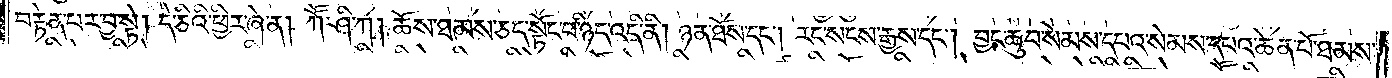བརྟེན་པར་བྱ་སྟེ། དེ་ཅིའི་ཕྱིར་ཞེ་ན། ཀཽ་ཤི་ཀ། ཆོས་ཐམས་ཅད་སྟོང་པ་ཉིད་འདི་ནི། ཉན་ཐོས་དང༌། རང་སངས་རྒྱས་དང༌། བྱང་ཆུབ་སེམས་དཔའ་སེམས་དཔའ་ཆེན་པོ་ཐམས་
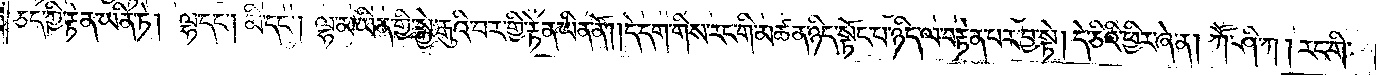ཅད་ཀྱི་རྟེན་ཡིན་ཏེ། ལྷ་དང༌། མི་དང༌། ལྷ་མ་ཡིན་གྱི་སྐྱེ་རྒུའི་བར་གྱི་རྟེན་ཡིན་ནོ། །དེ་དག་གིས་རང་གི་མཚན་ཉིད་སྟོང་པ་ཉིད་ལ་བརྟེན་པར་བྱ་སྟེ། དེ་ཅིའི་ཕྱིར་ཞེ་ན། ཀཽ་ཤི་ཀ། རང་གི་
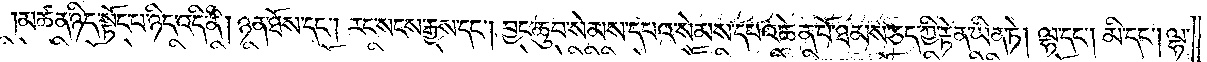མཚན་ཉིད་སྟོང་པ་ཉིད་འདི་ནི། ཉན་ཐོས་དང༌། རང་སངས་རྒྱས་དང༌། བྱང་ཆུབ་སེམས་དཔའ་སེམས་དཔའ་ཆེན་པོ་ཐམས་ཅད་ཀྱི་རྟེན་ཡིན་ཏེ། ལྷ་དང༌། མི་དང༌། ལྷ་
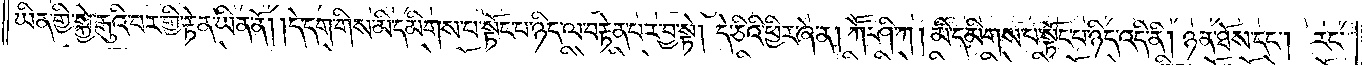ཡིན་གྱི་སྐྱེ་རྒུའི་བར་གྱི་རྟེན་ཡིན་ནོ། །དེ་དག་གིས་མི་དམིགས་པ་སྟོང་པ་ཉིད་ལ་བརྟེན་པར་བྱ་སྟེ། དེ་ཅིའི་ཕྱིར་ཞེ་ན། ཀཽ་ཤི་ཀ། མི་དམིགས་པ་སྟོང་པ་ཉིད་འདི་ནི། ཉན་ཐོས་དང༌། རང་
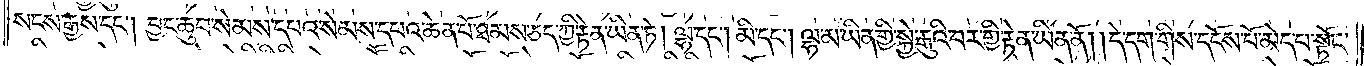སངས་རྒྱས་དང༌། བྱང་ཆུབ་སེམས་དཔའ་སེམས་དཔའ་ཆེན་པོ་ཐམས་ཅད་ཀྱི་རྟེན་ཡིན་ཏེ། ལྷ་དང༌། མི་དང༌། ལྷ་མ་ཡིན་གྱི་སྐྱེ་རྒུའི་བར་གྱི་རྟེན་ཡིན་ནོ། །དེ་དག་གིས་དངོས་པོ་མེད་པ་སྟོང་
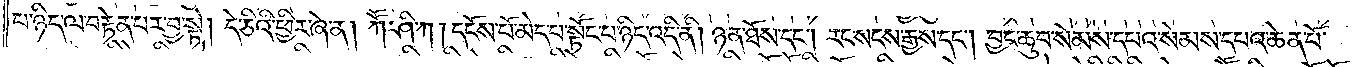པ་ཉིད་ལ་བརྟེན་པར་བྱ་སྟེ། དེ་ཅིའི་ཕྱིར་ཞེ་ན། ཀཽ་ཤི་ཀ། དངོས་པོ་མེད་པ་སྟོང་པ་ཉིད་འདི་ནི། ཉན་ཐོས་དང༌། རང་སངས་རྒྱས་དང༌། བྱང་ཆུབ་སེམས་དཔའ་སེམས་དཔའ་ཆེན་པོ་
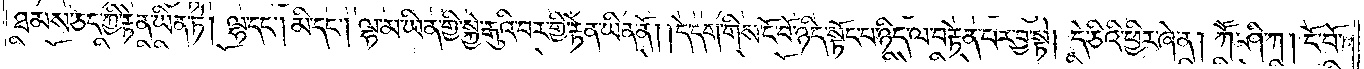ཐམས་ཅད་ཀྱི་རྟེན་ཡིན་ཏེ། ལྷ་དང༌། མི་དང༌། ལྷ་མ་ཡིན་གྱི་སྐྱེ་རྒུའི་བར་གྱི་རྟེན་ཡིན་ནོ། །དེ་དག་གིས་ངོ་བོ་ཉིད་སྟོང་པ་ཉིད་ལ་བརྟེན་པར་བྱ་སྟེ། དེ་ཅིའི་ཕྱིར་ཞེ་ན། ཀཽ་ཤི་ཀ། ངོ་བོ་
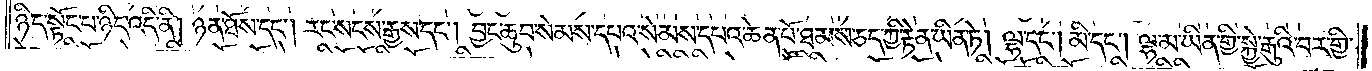ཉིད་སྟོང་པ་ཉིད་འདི་ནི། ཉན་ཐོས་དང༌། རང་སངས་རྒྱས་དང༌། བྱང་ཆུབ་སེམས་དཔའ་སེམས་དཔའ་ཆེན་པོ་ཐམས་ཅད་ཀྱི་རྟེན་ཡིན་ཏེ། ལྷ་དང༌། མི་དང༌། ལྷ་མ་ཡིན་གྱི་སྐྱེ་རྒུའི་བར་གྱི་
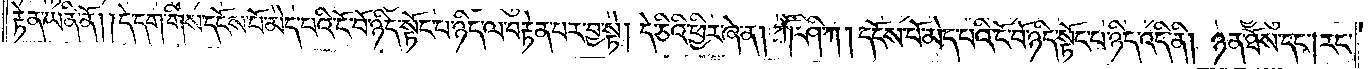རྟེན་ཡིན་ནོ། །དེ་དག་གིས་དངོས་པོ་མེད་པའི་ངོ་བོ་ཉིད་སྟོང་པ་ཉིད་ལ་བརྟེན་པར་བྱ་སྟེ། དེ་ཅིའི་ཕྱིར་ཞེ་ན། ཀཽ་ཤི་ཀ། དངོས་པོ་མེད་པའི་ངོ་བོ་ཉིད་སྟོང་པ་ཉིད་འདི་ནི། ཉན་ཐོས་དང༌། རང་
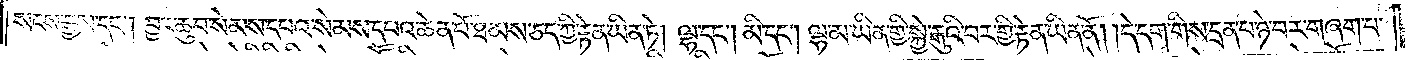སངས་རྒྱས་དང༌། བྱང་ཆུབ་སེམས་དཔའ་སེམས་དཔའ་ཆེན་པོ་ཐམས་ཅད་ཀྱི་རྟེན་ཡིན་ཏེ། ལྷ་དང༌། མི་དང༌། ལྷ་མ་ཡིན་གྱི་སྐྱེ་རྒུའི་བར་གྱི་རྟེན་ཡིན་ནོ། །དེ་དག་གིས་དྲན་པ་ཉེ་བར་གཞག་པ་
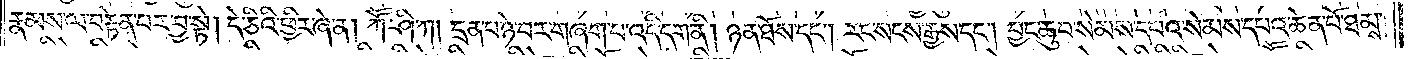རྣམས་ལ་བརྟེན་པར་བྱ་སྟེ། དེ་ཅིའི་ཕྱིར་ཞེ་ན། ཀཽ་ཤི་ཀ། དྲན་པ་ཉེ་བར་བཞག་པ་འདི་དག་ནི། ཉན་ཐོས་དང༌། རང་སངས་རྒྱས་དང༌། བྱང་ཆུབ་སེམས་དཔའ་སེམས་དཔའ་ཆེན་པོ་ཐམས་
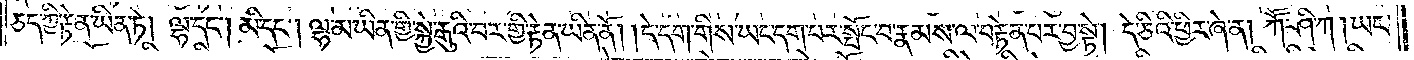ཅད་ཀྱི་རྟེན་ཡིན་ཏེ། ལྷ་དང༌། མི་དང༌། ལྷ་མ་ཡིན་གྱི་སྐྱེ་རྒུའི་བར་གྱི་རྟེན་ཡིན་ནོ། །དེ་དག་གིས་ཡང་དག་པར་སྤོང་བ་རྣམས་ལ་བརྟེན་པར་བྱ་སྟེ། དེ་ཅིའི་ཕྱིར་ཞེ་ན། ཀཽ་ཤི་ཀ། ཡང་
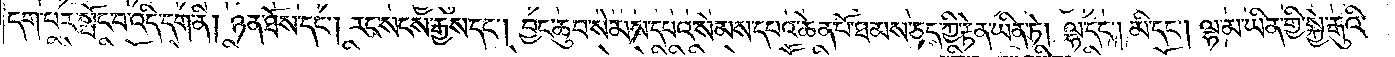དག་པར་སྤོང་བ་འདི་དག་ནི། ཉན་ཐོས་དང༌། རང་སངས་རྒྱས་དང༌། བྱང་ཆུབ་སེམས་དཔའ་སེམས་དཔའ་ཆེན་པོ་ཐམས་ཅད་ཀྱི་རྟེན་ཡིན་ཏེ། ལྷ་དང༌། མི་དང༌། ལྷ་མ་ཡིན་གྱི་སྐྱེ་རྒུའི་
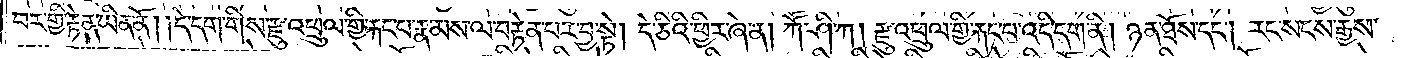བར་གྱི་རྟེན་ཡིན་ནོ། །དེ་དག་གིས་རྫུ་འཕྲུལ་གྱི་རྐང་པ་རྣམས་ལ་བརྟན་པར་བྱ་སྟེ། དེ་ཅིའི་ཕྱིར་ཞེ་ན། ཀཽ་ཤི་ཀ། རྫུ་འཕྲུལ་གྱི་རྐང་པ་འདི་དག་ནི། ཉན་ཐོས་དང༌། རང་སངས་རྒྱས་
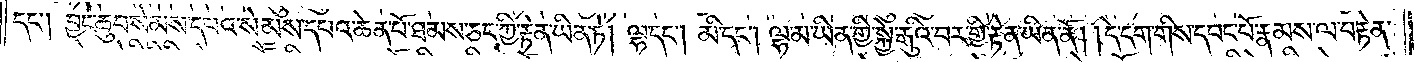དང༌། བྱང་ཆུབ་སེམས་དཔའ་སེམས་དཔའ་ཆེན་པོ་ཐམས་ཅད་ཀྱི་རྟེན་ཡིན་ཏེ། ལྷ་དང༌། མི་དང༌། ལྷ་མ་ཡིན་གྱི་སྐྱེ་རྒུའི་བར་གྱི་རྟེན་ཡིན་ནོ། །དེ་དག་གིས་དབང་པོ་རྣམས་ལ་བརྟེན་
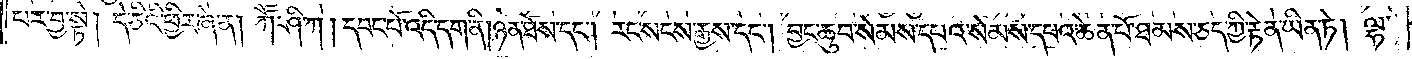པར་བྱ་སྟེ། དེ་ཅིའི་ཕྱིར་ཞེ་ན། ཀཽ་ཤི་ཀ། དབང་པོ་འདི་དག་ནི། ཉན་ཐོས་དང༌། རང་སངས་རྒྱས་དང༌། བྱང་ཆུབ་སེམས་དཔའ་སེམས་དཔའ་ཆེན་པོ་ཐམས་ཅད་ཀྱི་རྟེན་ཡིན་ཏེ། ལྷ་
